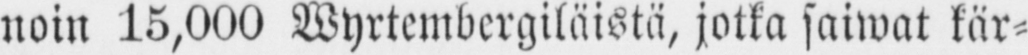noin 15,000 Wyrtembergiläistä, jotka saiwat kär-
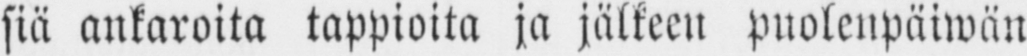siä ankaroita tappioita ja jälkeen puolenpäiwän
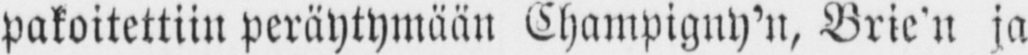pakoitettiin peräytymään Champigny’n, Brie’n ja
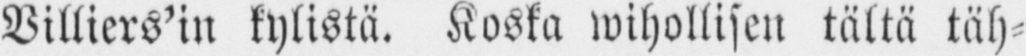Villiers’in kylistä. Koska wihollisen tältä täh-
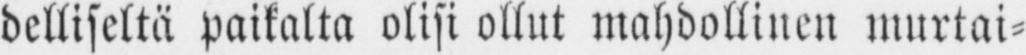delliseltä paikalta olisi ollut mahdollinen murtai-
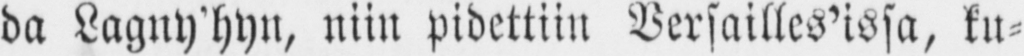da Lagny’hyn, niin pidettiin Versailles’issa, ku-
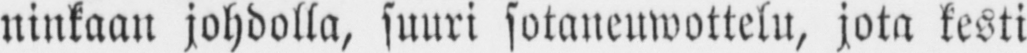ninkaan johdolla, suuri sotaneuwottelu, jota kesti
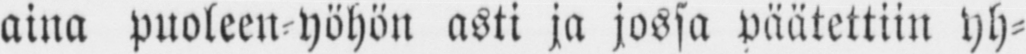aina puoleen-yöhön asti ja jossa päätettiin yh-
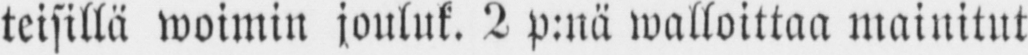teisillä woimin jouluk. 2 p:nä walloittaa mainitut
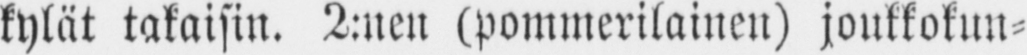kylät takaisin. 2:nen (pommerilainen) joukkokun-
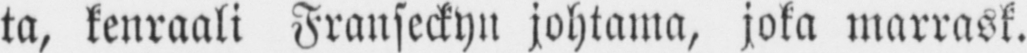ta, kenraali Franseckyn johtama, joka marrask.
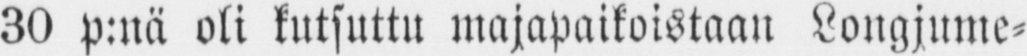30 p:nä oli kutsuttu majapaikoistaan Longjume-
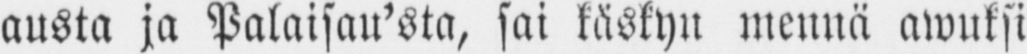austa ja Palaisau’sta, sai käskyn mennä awuksi
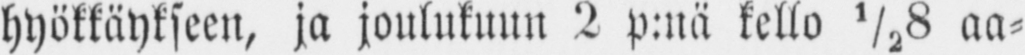hyökkäykseen, ja joulukuun 2 p:nä kello ½8 aa-
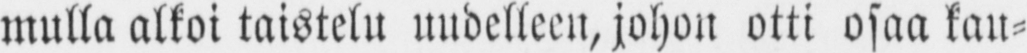mulla alkoi taistelu uudelleen, johon otti osaa kau-
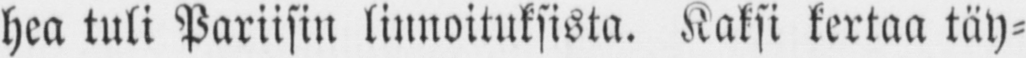hea tuli Pariisin linnoituksista. Kaksi kertaa täy-
